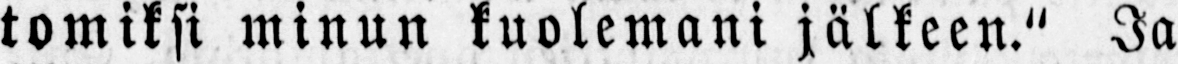tomiksi minun kuolemani jälkeen." Ja
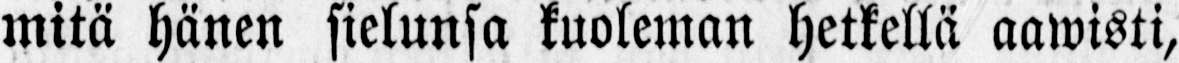mitä hänen sielunsa kuoleman hetkellä aawisti,
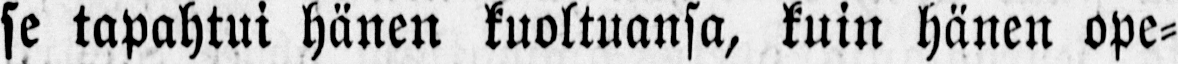se tapahtui hänen kuoltuansa, kuin hänen ope-
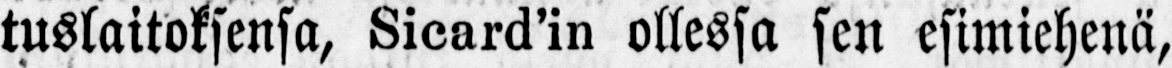tuslaitoksensa, Sicard'in ollessa sen esimiehenä,
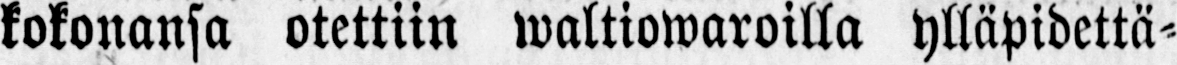kokonansa otettiin waltiowaroilla ylläpidettä-
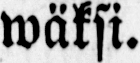wäksi.
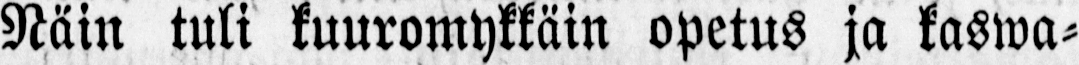Näin tuli kuuromykkäin opetus ja kaswa-
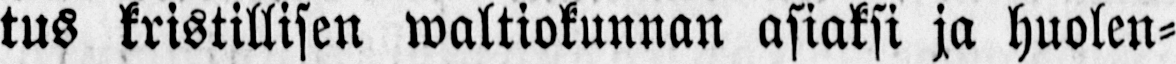tus kristillisen waltiokunnan asiaksi ja huolen-
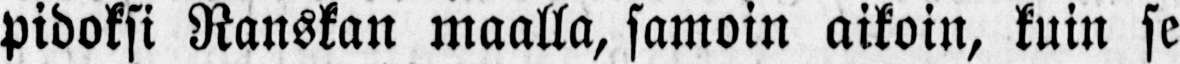pidoksi Ranskan maalla, samoin aikoin, kuin se
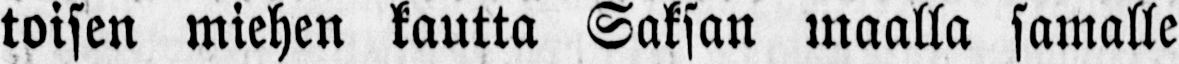toisen miehen kautta Saksan maalla samalle
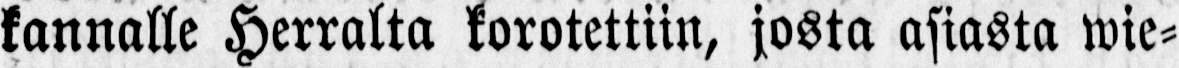kannalle Herralta korotettiin, josta asiasta wie-
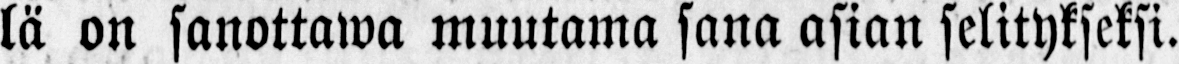lä on sanottawa muutama sana asian selitykseksi.
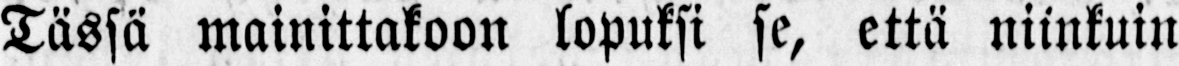Tässä mainittakoon lopuksi se, että niinkuin
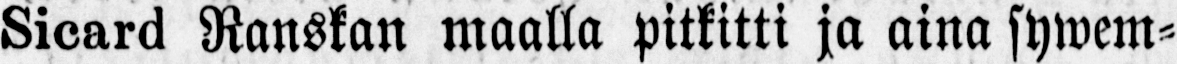Sicard Ranskan maalla pitkitti ja aina sywem-
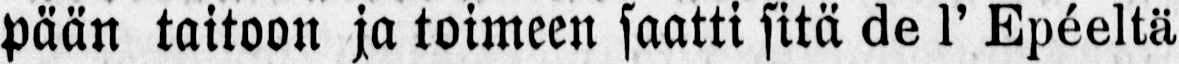pään taitoon ja toimeen saatti sitä l' Epéeltä
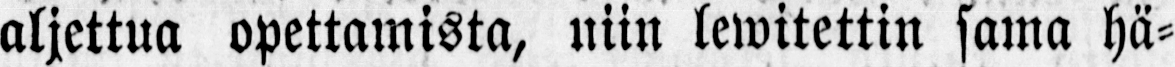aljettua opettamista, niin lewitettin sama hä-
